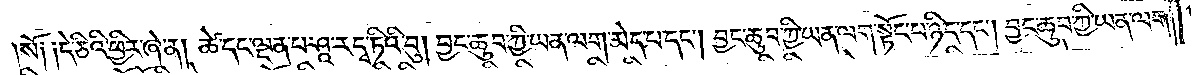སོ༑ ༑དེ་ཅིའི་ཕྱིར་ཞེ་ན། ཚེ་དང་ལྡན་པ་ཤཱ་རདྭ་ཏིའི་བུ། བྱང་ཆུབ་ཀྱི་ཡན་ལག་མེད་པ་དང༌། བྱང་ཆུབ་ཀྱི་ཡན་ལག་སྟོང་པ་ཉིད་དང༌། བྱང་ཆུབ་ཀྱི་ཡན་ལག་
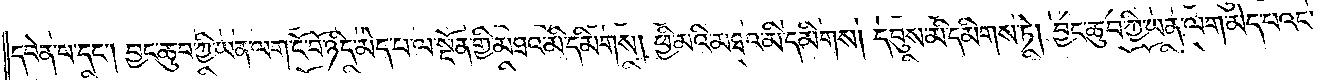དབེན་པ་དང༌། བྱང་ཆུབ་ཀྱི་ཡན་ལག་ངོ་བོ་ཉིད་མེད་པ་ལ་སྔོན་གྱི་མཐའ་མི་དམིགས། ཕྱི་མའི་མཐའ་མི་དམིགས། དབུས་མི་དམིགས་ཏེ། བྱང་ཆུབ་ཀྱི་ཡན་ལག་མེད་པའང་
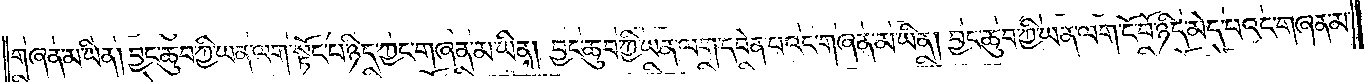གཞན་མ་ཡིན། བྱང་ཆུབ་ཀྱི་ཡན་ལག་སྟོང་པ་ཉིད་ཀྱང་གཞན་མ་ཡིན། བྱང་ཆུབ་ཀྱི་ཡན་ལག་དབེན་པའང་གཞན་མ་ཡིན། བྱང་ཆུབ་ཀྱི་ཡན་ལག་ངོ་བོ་ཉིད་མེད་པའང་གཞན་མ་
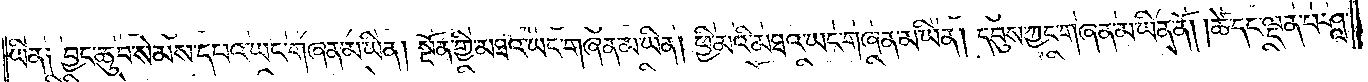ཡིན༑ བྱང་ཆུབ་སེམས་དཔའ་ཡང་གཞན་མ་ཡིན། སྔོན་གྱི་མཐའ་ཡང་གཞན་མ་ཡིན། ཕྱི་མའི་མཐའ་ཡང་གཞན་མ་ཡིན། དབུས་ཀྱང་གཞན་མ་ཡིན་ནོ། །ཚེ་དང་ལྡན་པ་ཤཱ་
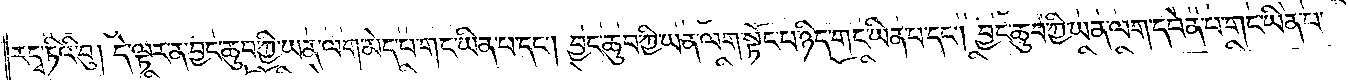རདྭ་ཏིའི་བུ། དེ་ལྟར་ན་བྱང་ཆུབ་ཀྱི་ཡན་ལག་མེད་པ་གང་ཡིན་པ་དང༌། བྱང་ཆུབ་ཀྱི་ཡན་ལག་སྟོང་པ་ཉིད་གང་ཡིན་པ་དང༌། བྱང་ཆུབ་ཀྱི་ཡན་ལག་དབེན་པ་གང་ཡིན་པ་
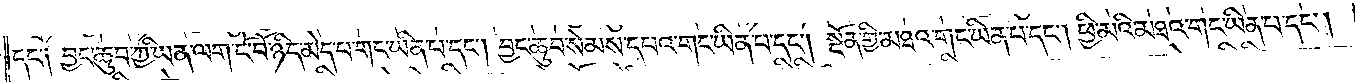དང་༑ བྱང་ཆུབ་ཀྱི་ཡན་ལག་ངོ་བོ་ཉིད་མེད་པ་གང་ཡིན་པ་དང༌། བྱང་ཆུབ་སེམས་དཔའ་གང་ཡིན་པ་དང༌། སྔོན་གྱི་མཐའ་གང་ཡིན་པ་དང༌། ཕྱི་མའི་མཐའ་གང་ཡིན་པ་དང༌།
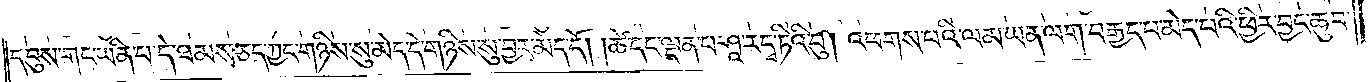དབུས་གང་ཡིན་པ་དེ་ཐམས་ཅད་ཀྱང་གཉིས་སུ་མེད་དེ་གཉིས་སུ་བྱར་མེད་དོ། །ཚེ་དང་ལྡན་པ་ཤཱ་རདྭ་ཏིའི་བུ། འཕགས་པའི་ལམ་ཡན་ལག་བརྒྱད་པ་མེད་པའི་ཕྱིར་བྱང་ཆུབ་
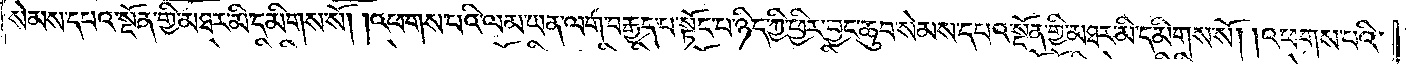སེམས་དཔའ་སྔོན་གྱི་མཐར་མི་དམིགས་སོ། །འཕགས་པའི་ལམ་ཡན་ལག་བརྒྱད་པ་སྟོང་པ་ཉིད་ཀྱི་ཕྱིར་བྱང་ཆུབ་སེམས་དཔའ་སྔོན་གྱི་མཐར་མི་དམིགས་སོ། །འཕགས་པའི་
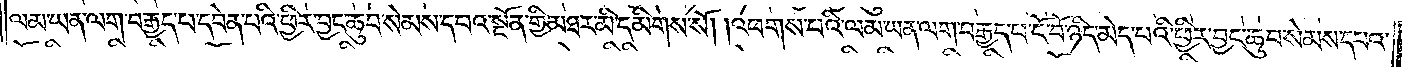ལམ་ཡན་ལག་བརྒྱད་པ་དབེན་པའི་ཕྱིར་བྱང་ཆུབ་སེམས་དཔའ་སྔོན་གྱི་མཐར་མི་དམིགས་སོ། །འཕགས་པའི་ལམ་ཡན་ལག་བརྒྱད་པ་ངོ་བོ་ཉིད་མེད་པའི་ཕྱིར་བྱང་ཆུབ་སེམས་དཔའ་
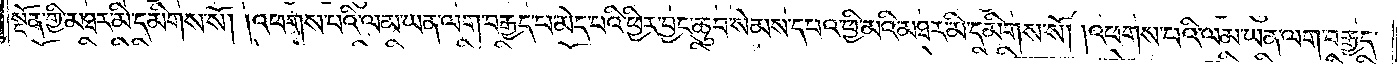སྔོན་གྱི་མཐར་མི་དམིགས་སོ། །འཕགས་པའི་ལམ་ཡན་ལག་བརྒྱད་པ་མེད་པའི་ཕྱིར་བྱང་ཆུབ་སེམས་དཔའ་ཕྱི་མའི་མཐར་མི་དམིགས་སོ། །འཕགས་པའི་ལམ་ཡན་ལག་བརྒྱད་
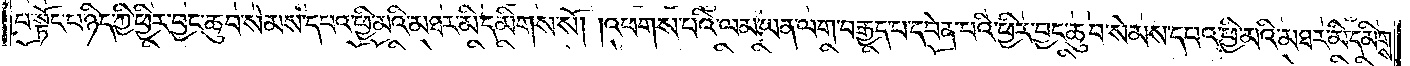པ་སྟོང་པ་ཉིད་ཀྱི་ཕྱིར་བྱང་ཆུབ་སེམས་དཔའ་ཕྱི་མའི་མཐར་མི་དམིགས་སོ། །འཕགས་པའི་ལམ་ཡན་ལག་བརྒྱད་པ་དབེན་པའི་ཕྱིར་བྱང་ཆུབ་སེམས་དཔའ་ཕྱི་མའི་མཐར་མི་དམིགས་
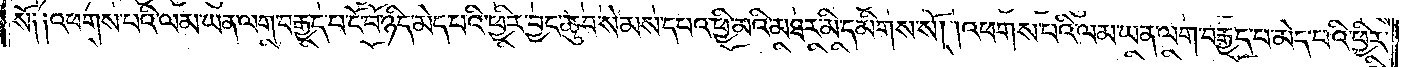སོ༑ ༑འཕགས་པའི་ལམ་ཡན་ལག་བརྒྱད་པ་ངོ་བོ་ཉིད་མེད་པའི་ཕྱིར་བྱང་ཆུབ་སེམས་དཔའ་ཕྱི་མའི་མཐར་མི་དམིགས་སོ། །འཕགས་པའི་ལམ་ཡན་ལག་བརྒྱད་པ་མེད་པའི་ཕྱིར་
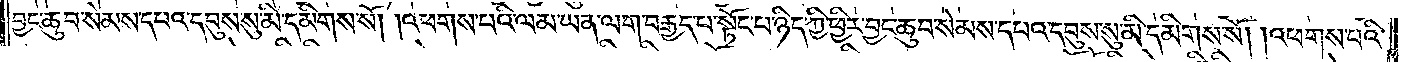བྱང་ཆུབ་སེམས་དཔའ་དབུས་སུ་མི་དམིགས་སོ། །འཕགས་པའི་ལམ་ཡན་ལག་བརྒྱད་པ་སྟོང་པ་ཉིད་ཀྱི་ཕྱིར་བྱང་ཆུབ་སེམས་དཔའ་དབུས་སུ་མི་དམིགས་སོ། །འཕགས་པའི་
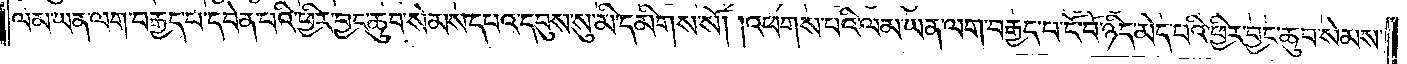ལམ་ཡན་ལག་བརྒྱད་པ་དབེན་པའི་ཕྱིར་བྱང་ཆུབ་སེམས་དཔའ་དབུས་སུ་མི་དམིགས་སོ། །འཕགས་པའི་ལམ་ཡན་ལག་བརྒྱད་པ་ངོ་བོ་ཉིད་མེད་པའི་ཕྱིར་བྱང་ཆུབ་སེམས་
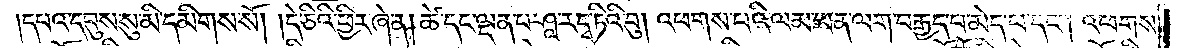དཔའ་དབུས་སུ་མི་དམིགས་སོ། །དེ་ཅིའི་ཕྱིར་ཞེ་ན། ཚེ་དང་ལྡན་པ་ཤཱ་རདྭ་ཏིའི་བུ། འཕགས་པའི་ལམ་ཡན་ལག་བརྒྱད་པ་མེད་པ་དང༌། འཕགས་
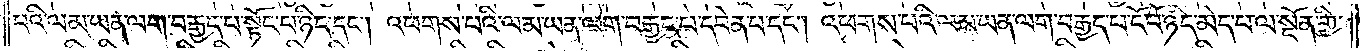པའི་ལམ་ཡན་ལག་བརྒྱད་པ་སྟོང་པ་ཉིད་དང༌། འཕགས་པའི་ལམ་ཡན་ལག་བརྒྱད་པ་དབེན་པ་དང༌། འཕགས་པའི་ལམ་ཡན་ལག་བརྒྱད་པ་ངོ་བོ་ཉིད་མེད་པ་ལ་སྔོན་གྱི་
